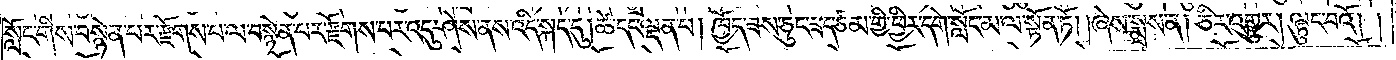སློང་གིས་བསྙེན་པར་རྫོགས་པ་ལ་བསྙེན་པར་རྫོགས་པར་འདུ་ཤེས་ནས་འདི་སྐད་དུ། ཚེ་དང་ལྡན་པ། ཁྱོད་ཟས་ཅུང་ཟད་ཙམ་གྱི་ཕྱིར་དགེ་སློང་མ་ལ་སྟོན་ཏོ། །ཞེས་སྨྲས་ན། ཅིར་འགྱུར། ལྟུང་བའོ། །
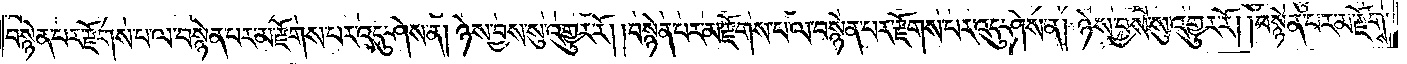བསྙེན་པར་རྫོགས་པ་ལ་བསྙེན་པར་མ་རྫོགས་པར་འདུ་ཤེས་ན། ཉེས་བྱས་སུ་འགྱུར་རོ། །བསྙེན་པར་མ་རྫོགས་པ་ལ་བསྙེན་པར་རྫོགས་པར་འདུ་ཤེས་ན། ཉེས་བྱས་སུ་འགྱུར་རོ། །བསྙེན་པར་མ་རྫོགས་
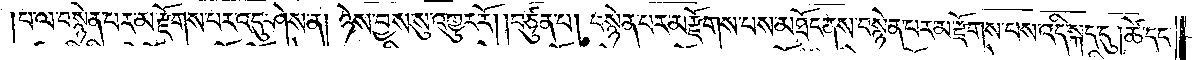།པ་ལ་བསྙེན་པར་མ་རྫོགས་པར་འདུ་ཤེས་ན། ཉེས་བྱས་སུ་འགྱུར་རོ། །བཙུན་པ། བསྙེན་པར་མ་རྫོགས་པས་མཐོང་ནས་བསྙེན་པར་མ་རྫོགས་པས་འདི་སྐད་དུ། ཚེ་དང་
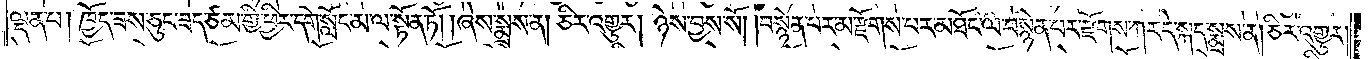ལྡན་པ། ཁྱོད་ཟས་ཅུང་ཟད་ཙམ་གྱི་ཕྱིར་དགེ་སློང་མ་ལ་སྟོན་ཏོ། །ཞེས་སྨྲས་ན། ཅིར་འགྱུར། ཉེས་བྱས་སོ། །བསྙེན་པར་མ་རྫོགས་པར་མཐོང་ལ་བསྙེན་པར་རྫོགས་ཀར་དེ་སྐད་སྨྲས་ན། ཅིར་འགྱུར་
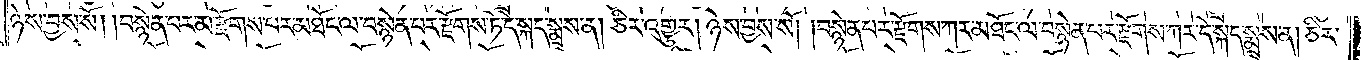ཉེས་བྱས་སོ། །བསྙེན་པར་མ་རྫོགས་པར་མཐོང་ལ་བསྙེན་པར་རྫོགས་ཏེ་དེ་སྐད་སྨྲས་ན། ཅིར་འགྱུར། ཉེས་བྱས་སོ། །བསྙེན་པར་རྫོགས་ཀར་མཐོང་ལ་བསྙེན་པར་རྫོགས་ཀར་དེ་སྐད་སྨྲས་ན། ཅིར་
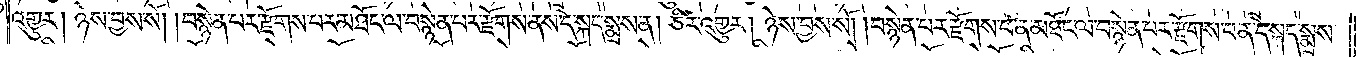འགྱུར། ཉེས་བྱས་སོ། །བསྙེན་པར་རྫོགས་པར་མཐོང་ལ་བསྙེན་པར་རྫོགས་ནས་དེ་སྐད་སྨྲས་ན། ཅིར་འགྱུར། ཉེས་བྱས་སོ། །བསྙེན་པར་རྫོགས་པ་ན་མཐོང་ལ་བསྙེན་པར་རྫོགས་པ་ན་དེ་སྐད་སྨྲས་
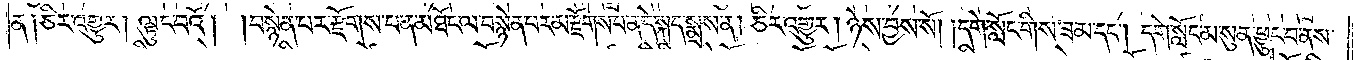ན། ཅིར་འགྱུར། ལྟུང་བའོ། །བསྙེན་པར་རྫོགས་པ་ན་མཐོང་ལ་བསྙེན་པར་མ་རྫོགས་པ་ན་དེ་སྐད་སྨྲས་ན། ཅིར་འགྱུར། ཉེས་བྱས་སོ། །དགེ་སློང་གིས་ཟ་མ་དང༌། དགེ་སློང་མ་སུན་ཕྱུང་བ་ནས་
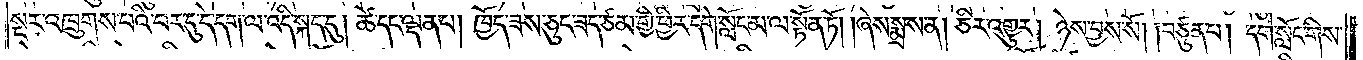སྔར་འཁྲུགས་པའི་བར་དུ་དེ་དག་ལ་འདི་སྐད་དུ། ཚེ་དང་ལྡན་པ། ཁྱོད་ཟས་ཅུང་ཟད་ཙམ་གྱི་ཕྱིར་དགེ་སློང་མ་ལ་སྟོན་ཏོ། །ཞེས་སྨྲས་ན། ཅིར་འགྱུར། ཉེས་བྱས་སོ། །བཙུན་པ། དགེ་སློང་གིས་
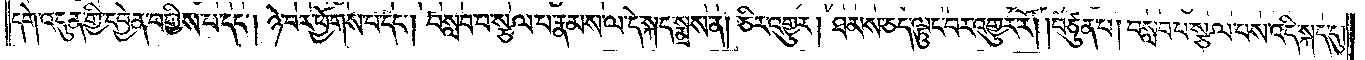དགེ་འདུན་གྱི་དབྱེན་བགྱིས་པ་དང༌། ཉེ་བར་ཕྱོགས་པ་དང༌། བསླབ་པ་སྩལ་པ་རྣམས་ལ་དེ་སྐད་སྨྲས་ན། ཅིར་འགྱུར། ཐམས་ཅད་ལྟུང་བར་འགྱུར་རོ། །བཙུན་པ། བསླབ་པ་སྩལ་པས་འདི་སྐད་དུ་
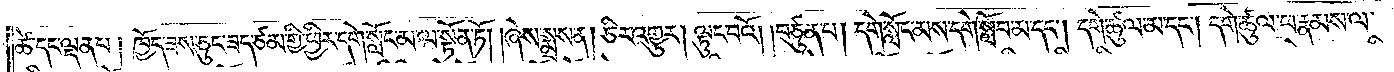ཚེ་དང་ལྡན་པ། ཁྱོད་ཟས་ཅུང་ཟད་ཙམ་གྱི་ཕྱིར་དགེ་སློང་མ་ལ་སྟོན་ཏོ། །ཞེས་སྨྲས་ན། ཅིར་འགྱུར། ལྟུང་བའོ། །བཙུན་པ། དགེ་སློང་མས་དགེ་སློབ་མ་དང༌། དགེ་ཚུལ་མ་དང༌། དགེ་ཚུལ་ཕ་རྣམས་ལ་
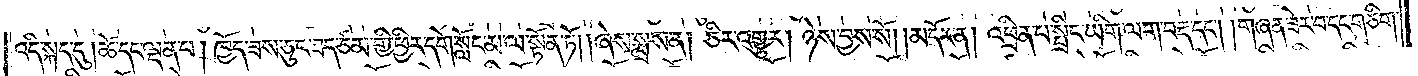འདི་སྐད་དུ། ཚེ་དང་ལྡན་པ། ཁྱོད་ཟས་ཅུང་ཟད་ཙམ་གྱི་ཕྱིར་དགེ་སློང་མ་ལ་སྟོན་ཏོ། །ཞེས་སྨྲས་ན། ཅིར་འགྱུར། ཉེས་བྱས་སོ། །མདོར་ན། འཕྲིན་པ་སྤྲིང་ཡིག་ལག་བརྡ་དང༌། །གཞན་ཟེར་བ་དང་གཅིག་
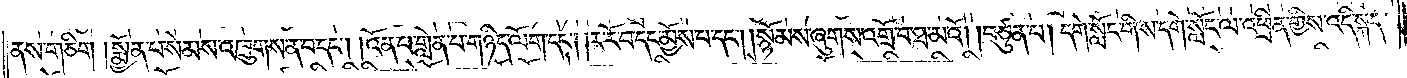ནས་གཅིག །སྨྱོན་པ་སེམས་འཁྲུགས་ན་བ་དང༌། །འོན་པ་གླེན་པ་གཉིད་ལོག་དང༌། །ར་རོ་བ་དང་མྱོས་པ་དང༌། །སྙོམས་ཞུགས་འགྲོ་བ་ཐ་མའོ། །བཙུན་པ། དགེ་སློང་གིས་དགེ་སློང་ལ་འཕྲིན་གྱིས་འདི་སྐད་
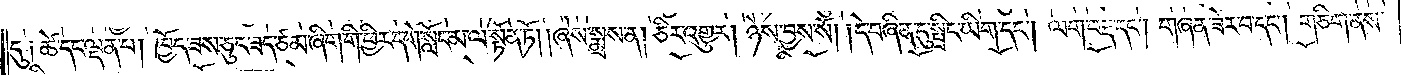དུ༑ ཚེ་དང་ལྡན་པ། ཁྱོད་ཟས་ཅུང་ཟད་ཙམ་ཞིག་གི་ཕྱིར་དགེ་སློང་མ་ལ་སྟོན་ཏོ། །ཞེས་སྨྲས་ན། ཅིར་འགྱུར། ཉེས་བྱས་སོ། །དེ་བཞིན་དུ་སྤྲིང་ཡིག་དང༌། ལག་བརྡ་དང༌། གཞན་ཟེར་བ་དང༌། གཅིག་ནས་
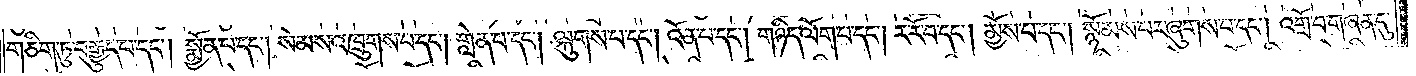གཅིག་ཏུ་བརྒྱུད་པ་དང༌། སྨྱོན་པ་དང༌། སེམས་འཁྲུགས་པ་དང༌། གླེན་པ་དང༌། ལྐུགས་པ་དང༌། འོན་པ་དང༌། གཉིད་ལོག་པ་དང༌། ར་རོ་བ་དང༌། མྱོས་པ་དང༌། སྙོམས་པར་ཞུགས་པ་དང༌། འགྲོ་བ་གཞན་དུ་
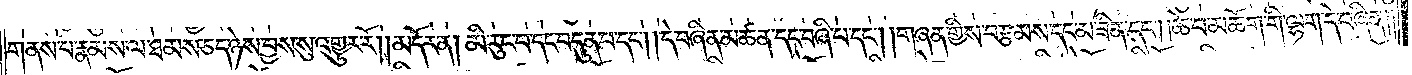གནས་པ་རྣམས་ལ་ཐམས་ཅད་ཉེས་བྱས་སུ་འགྱུར་རོ།    །མདོར་ན། མི་རུང་བ་དང་བདུན་པ་དང༌། །དེ་བཞིན་མཚན་དང་བཞི་པ་དང༌། །གཞན་གྱིས་བརྩམས་དང་མ་ཟིན་དང༌། །ཆེ་བ་མཆོག་གི་ལྷག་དེ་བཞིན། །
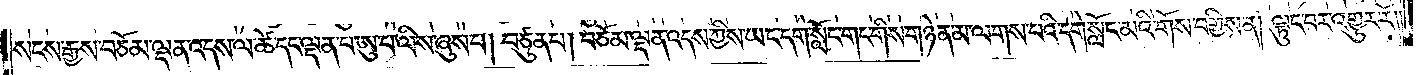སངས་རྒྱས་བཅོམ་ལྡན་འདས་ལ་ཚེ་དང་ལྡན་པ་ཨུ་པ་ལིས་ཞུས་པ། བཙུན་པ། བཅོམ་ལྡན་འདས་ཀྱིས་ཡང་དགེ་སློང་གང་གིས་གཉེན་མ་ལགས་པའི་དགེ་སློང་མའི་གོས་བགྱིས་ན། ལྟུང་བར་འགྱུར་རོ༎
